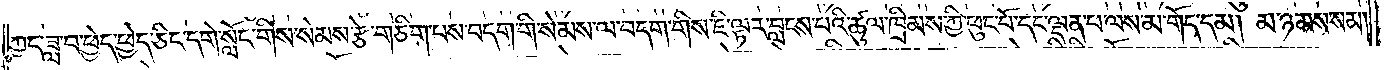ཀྱང་ཟླ་བ་ཕྱེད་ཕྱེད་ཅིང་དགེ་སློང་གིས་སེམས་རྩེ་གཅིག་པས་བདག་གི་སེམས་ལ་བདག་གིས་ཇི་ལྟར་བླངས་པའི་ཚུལ་ཁྲིམས་ཀྱི་ཕུང་པོ་དང་ལྡན་པ་ལས་མ་གོད་དམ། མ་ཉམས་སམ།
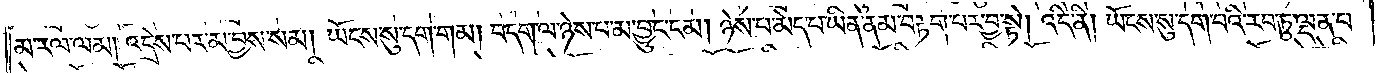མ་རལ་ལམ། འདྲེས་པར་མ་བྱས་སམ། ཡོངས་སུ་དག་གམ། བདག་ལ་ཉེས་པ་མ་བྱུང་ངམ། ཉེས་པ་མེད་པ་ཡིན་ནམ་བརྟག་པར་བྱ་སྟེ། འདི་ནི། ཡོངས་སུ་དག་པའི་རབ་ཏུ་ལྡན་པ་
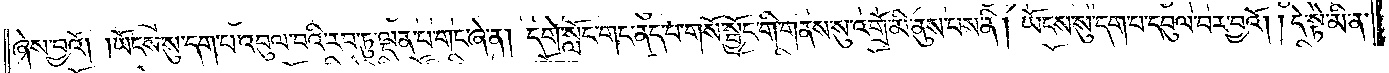ཞེས་བྱའོ། །ཡོངས་སུ་དག་པ་འབུལ་བའི་རབ་ཏུ་ལྡན་པ་གང་ཞེ་ན། དགེ་སློང་གང་ནད་པ་གསོ་སྦྱོང་གི་གནས་སུ་འགྲོ་མི་ནུས་པས་ནི། ཡོངས་སུ་དག་པ་འབུལ་བར་བྱའོ། །དེ་སྟེ་མི་ན་
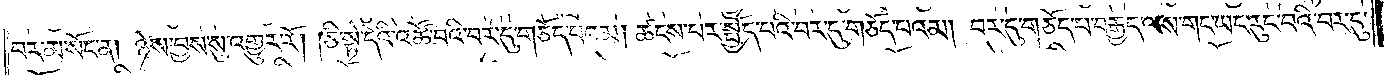བར་མ་སོང་ན། ཉེས་བྱས་སུ་འགྱུར་རོ། །ཅི་སྟེ་དེའི་འཚོ་བའི་བར་དུ་གཅོད་པའམ། ཚངས་པར་སྤྱོད་པའི་བར་དུ་གཅོད་པའམ། བར་དུ་གཅོད་པ་བརྒྱད་ལས་གང་ཡང་རུང་བའི་བར་དུ་
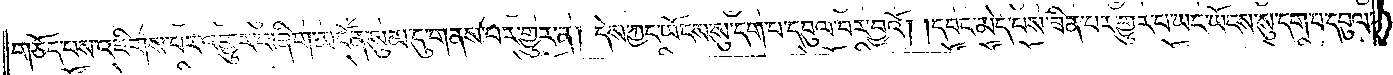གཅོད་པས་འཇིགས་པར་འགྱུར་བ་ཞིག་མངོན་སུམ་དུ་གནས་པར་གྱུར་ན། དེས་ཀྱང་ཡོངས་སུ་དག་པ་དབུལ་བར་བྱའོ། །དབང་མེད་པས་ཟིན་པར་གྱུར་པ་ཡང་ཡོངས་སུ་དག་པ་དབུལ་
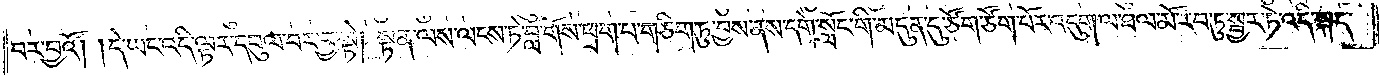བར་བྱའོ། །དེ་ཡང་འདི་ལྟར་དབུལ་བར་བྱ་སྟེ། སྟན་ལས་ལངས་ཏེ་བླ་གོས་ཕྲག་པ་གཅིག་ཏུ་བྱས་ནས་དགེ་སློང་གི་མདུན་དུ་ཙོག་ཙོག་པོར་འདུག་ལ་ཐལ་མོ་རབ་ཏུ་སྦྱར་ཏེ་འདི་སྐད་
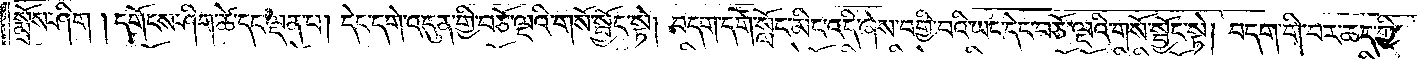སྨྲོས་ཤིག །དགོངས་ཤིག་ཚེ་དང་ལྡན་པ། དེང་དགེ་འདུན་གྱི་བཅོ་ལྔའི་གསོ་སྦྱོང་སྟེ། བདག་དགེ་སློང་མིང་འདི་ཞེས་བགྱི་བའི་ཡང་དེང་བཅོ་ལྔའི་གསོ་སྦྱོང་སྟེ། བདག་གི་བར་ཆད་ཀྱི་
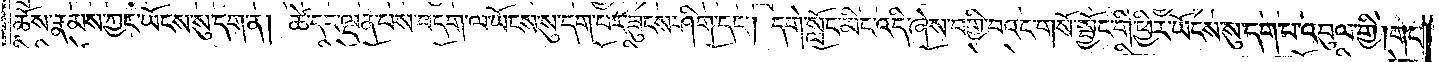ཆོས་རྣམས་ཀྱང་ཡོངས་སུ་དག་ན། ཚེ་དང་ལྡན་པས་བདག་ལ་ཡོངས་སུ་དག་པར་ཟུངས་ཤིག་དང༌། དགེ་སློང་མིང་འདི་ཞེས་བགྱི་བའང་གསོ་སྦྱོང་གི་ཕྱིར་ཡོངས་སུ་དག་པ་འབུལ་གྱི། གང་
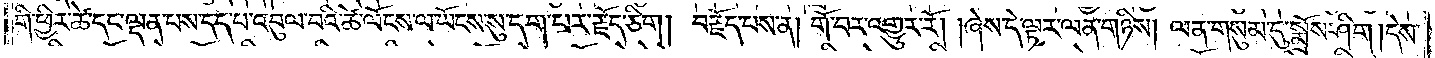གི་ཕྱིར་ཚེ་དང་ལྡན་པས་དད་པ་འབུལ་བའི་ཚེ་ལོངས་ལ་ཡོངས་སུ་དག་པར་རྗོད་ཅིག །བརྗོད་པས་ན། གོ་བར་འགྱུར་རོ། །ཞེས་དེ་ལྟར་ལན་གཉིས། ལན་གསུམ་དུ་སྨྲོས་ཤིག །དེས་
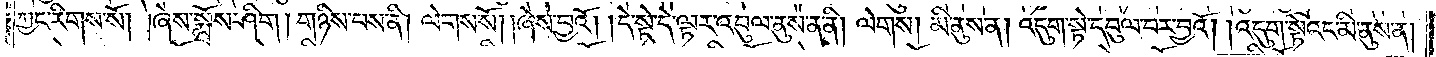ཀྱང་རིགས་སོ། །ཞེས་སྨྲོས་ཤིག །གཉིས་པས་ནི། ལེགས་སོ། །ཞེས་བྱའོ། །དེ་སྟེ་དེ་ལྟར་འབུལ་ནུས་ན་ནི། ལེགས། མི་ནུས་ན། འདུག་སྟེ་དབུལ་བར་བྱའོ། །འདུག་སྟེའང་མི་ནུས་ན།
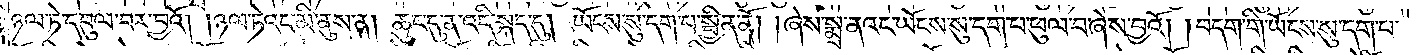ཉལ་ཏེ་དབུལ་བར་བྱའོ། །ཉལ་ཏེའང་མི་ནུས་ན། ཆུང་ངུ་ན་འདི་སྐད་དུ། ཡོངས་སུ་དག་པ་སྦྱིན་ནོ། །ཞེས་སྨྲ་ནའང་ཡོངས་སུ་དག་པ་ཕུལ་བ་ཞེས་བྱའོ། །བདག་གི་ཡོངས་སུ་དག་པ་
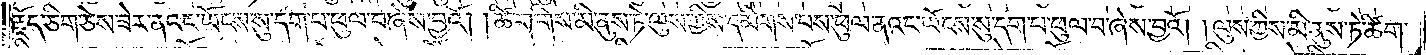རྗོད་ཅིག་ཅེས་ཟེར་ནའང་ཡོངས་སུ་དག་པ་ཕུལ་བ་ཞེས་བྱའོ། །ཚིག་གིས་མི་ནུས་ཏེ་ལུས་ཀྱིས་དམིགས་པས་ཕུལ་ནའང་ཡོངས་སུ་དག་པ་ཕུལ་བ་ཞེས་བྱའོ། །ལུས་ཀྱིས་མི་ནུས་ཏེ་ཚིག་
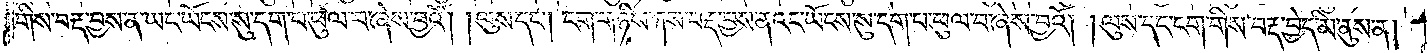གིས་བརྡ་བྱས་ན་ཡང་ཡོངས་སུ་དག་པ་ཕུལ་བ་ཞེས་བྱའོ། །ལུས་དང༌། ངག་གཉིས་ཀས་བརྡ་བྱས་ནའང་ཡོངས་སུ་དག་པ་ཕུལ་བ་ཞེས་བྱའོ། །ལུས་དང་ངག་གིས་བརྡ་བྱེད་མི་ནུས་ན།
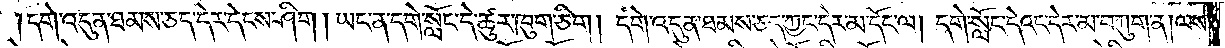དགེ་འདུན་ཐམས་ཅད་དེར་དེངས་ཤིག །ཡང་ན་དགེ་སློང་དེ་ཚུར་ཁུག་ཅིག། དགེ་འདུན་ཐམས་ཅད་ཀྱང་དེར་མ་དོང་ལ། དགེ་སློང་དེའང་དེར་མ་བཀུག་ན། ལས་
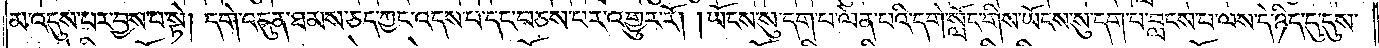མ་འདུས་པར་བྱས་པ་སྟེ། དགེ་འདུན་ཐམས་ཅད་ཀྱང་འདས་པ་དང་བཅས་པར་འགྱུར་རོ། །ཡོངས་སུ་དག་པ་ལེན་པའི་དགེ་སློང་གིས་ཡོངས་སུ་དག་པ་བླངས་པ་ལས་དེ་ཉིད་དུ་དུས་
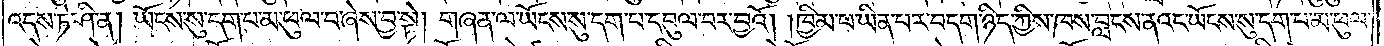འདས་ཏེ་ཤི་ན། ཡོངས་སུ་དག་པ་མ་ཕུལ་བ་ཞེས་བྱ་སྟེ། གཞན་ལ་ཡོངས་སུ་དག་པ་དབུལ་བར་བྱའོ། །ཁྱིམ་པ་ཡིན་པར་བདག་ཉིད་ཀྱིས་ཁས་བླངས་ནའང་ཡོངས་སུ་དག་པ་མ་ཕུལ་
